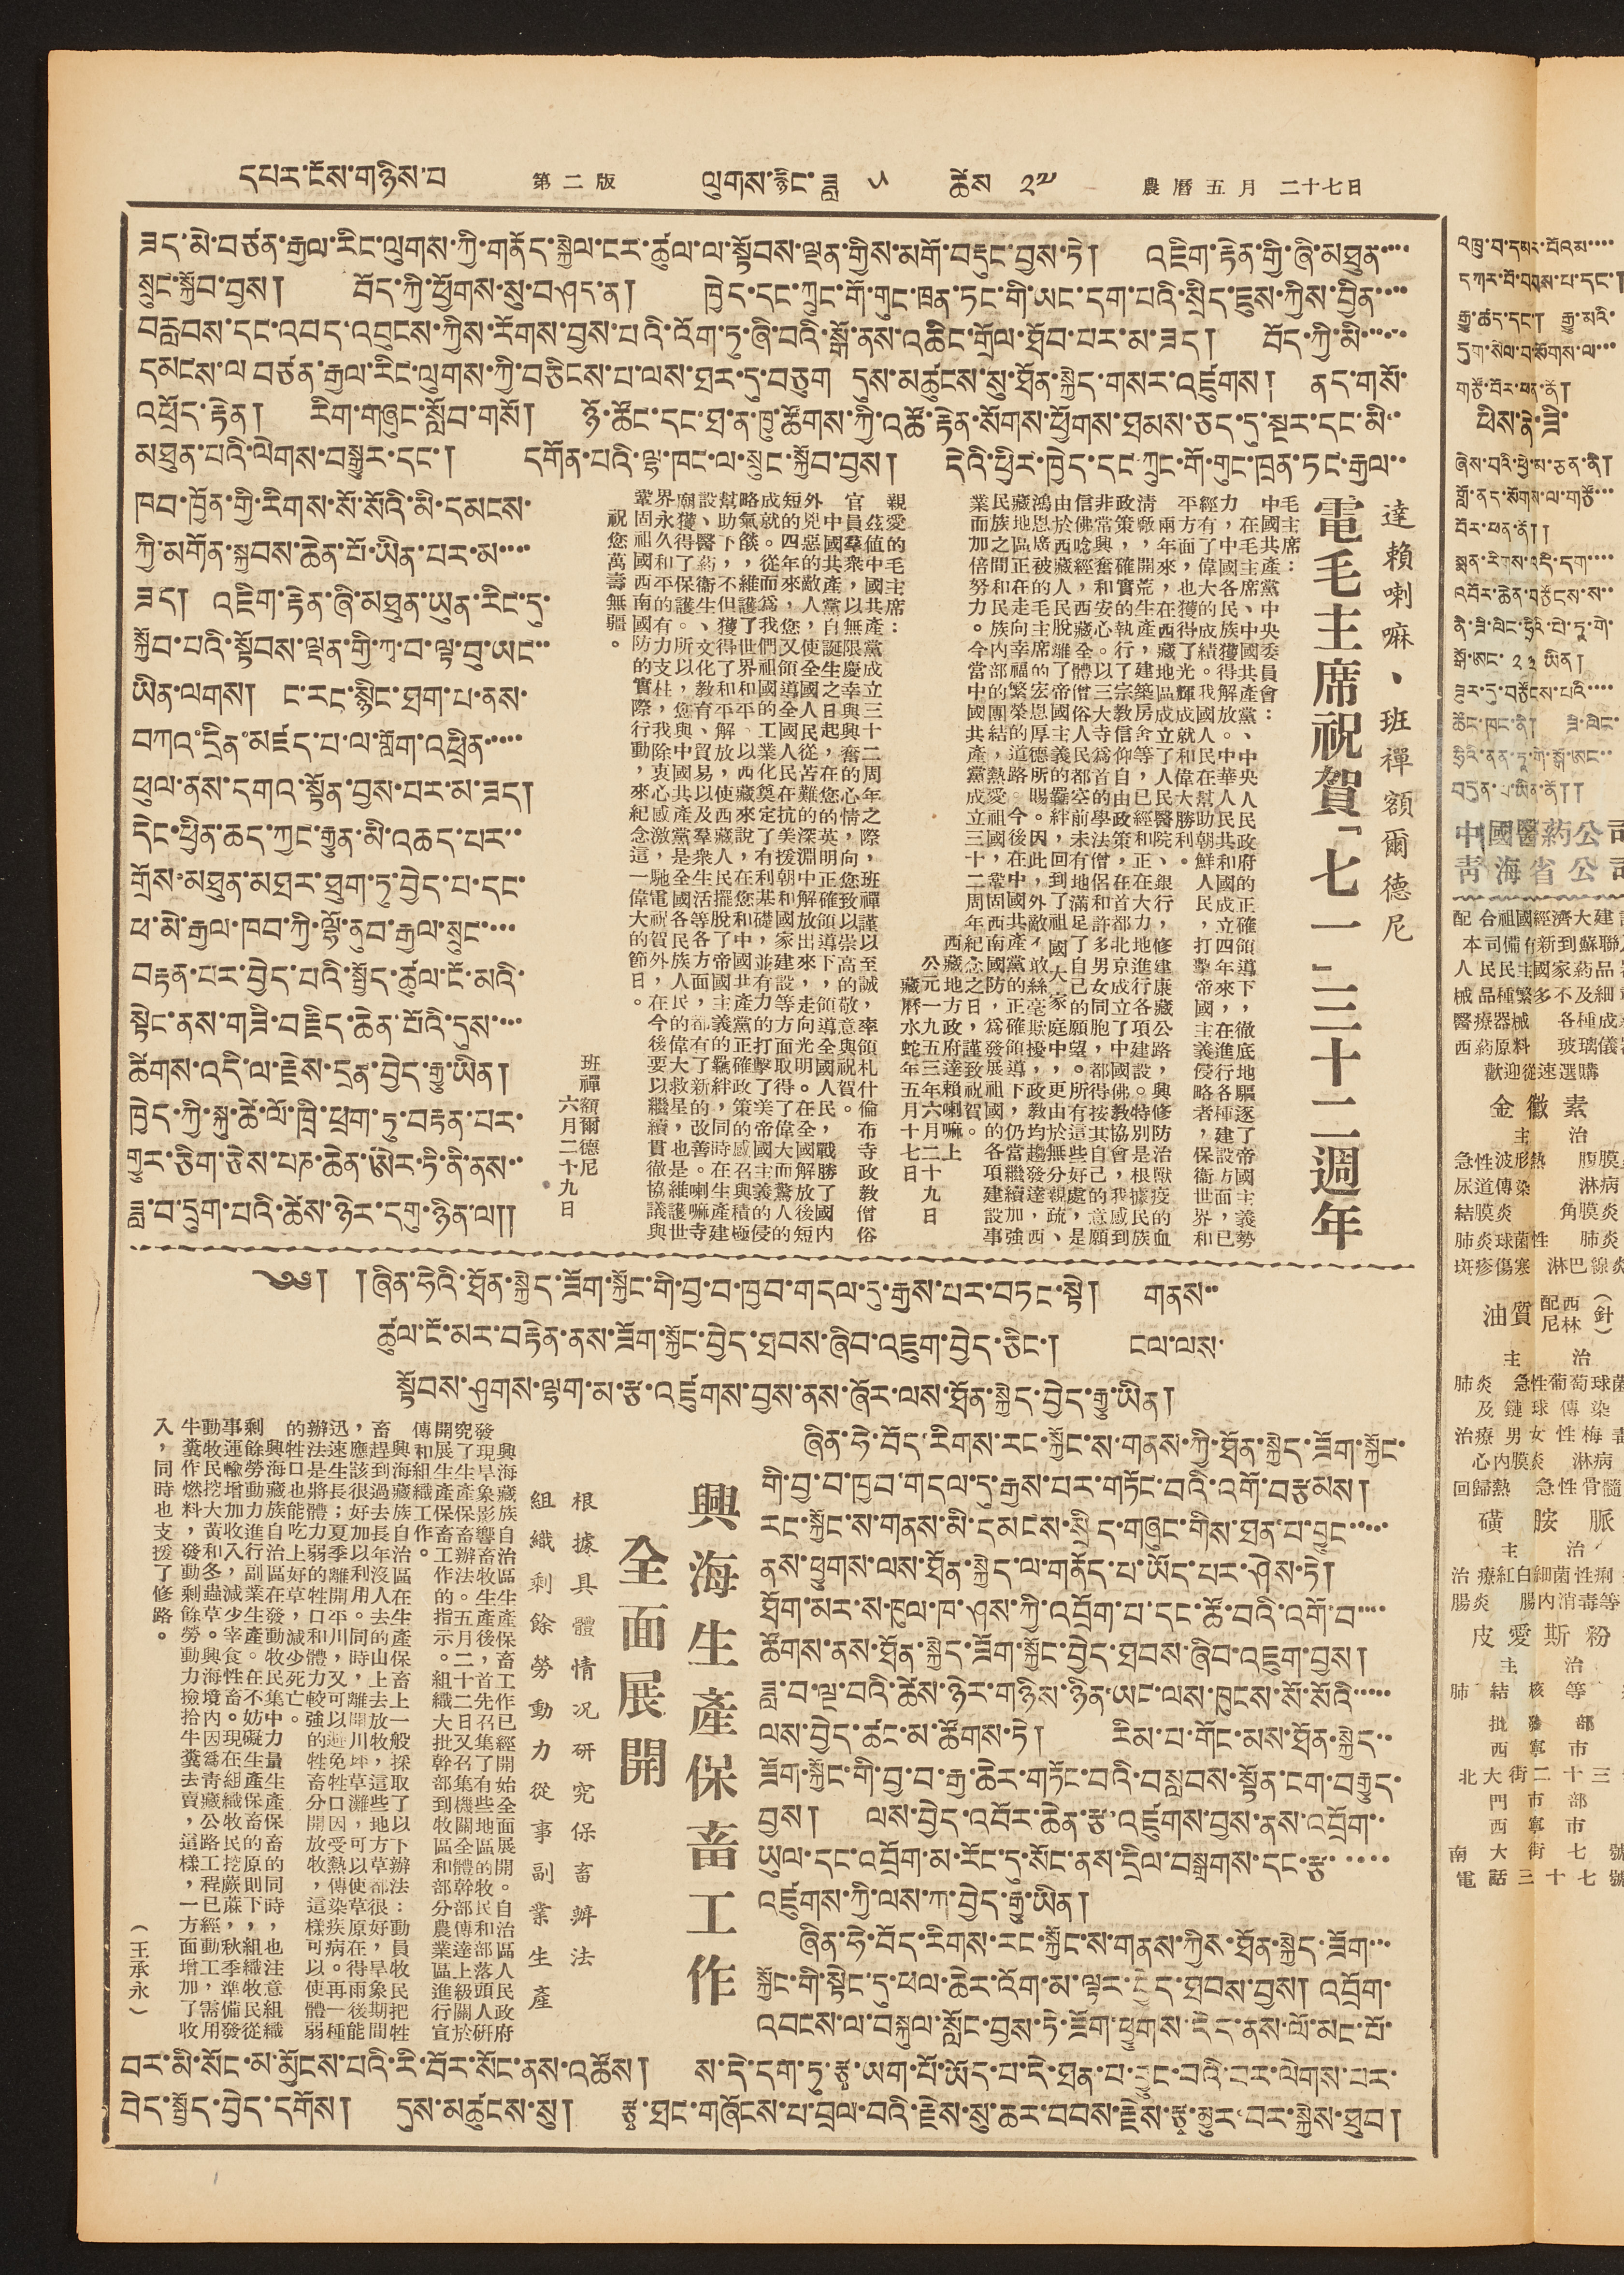དཔར་ངོས་གཉིས་པ 第 二 版 ལུགས་རྙིང་ཟླ ༥ ཚེས ༢༧ 農 曆 五 月 二十七日
ཟད་མེ་བཙན་རྒྱལ་རིང་ལུགས་ཀྱི་ནོད་སྐྱེལ་ངར་ཚུལ་ལ་སྟོབས་ལྡན་གྱིས་མགོ་བརྡུང་བྱས་ཏེ། འཇིག་རྟེན་གྱི་ཞི་མཐུན་་་་
སྲུང་སྐྱོབ་བྱས། བོད་ཀྱི་ཕྱོགས་སུ་བཤད་ན། ཁྱེད་དང་ཀྲུང་གོ་གུང་ཁྲན་ཏང་གི་ཡང་དག་པའི་སྲིད་ཇུས་ཀྱིས་བྱིན་་་་
བརླབས་དང་འབད་འབུངས་ཀྱིས་རོགས་བྱས་པའི་འོག་ཏུ་ཞི་བའི་སྒོ་ནས་འཆིང་གྲོལ་ཐོབ་པར་མ་ཟད། བོད་ཀྱི་མི་་་་་་
དམངས་ལ བཙན་རྒྱལ་རིང་ལུགས་ཀྱི་བཅིངས་པ་ལས་ཐར་དུ་བཅུག དུས་མཚུངས་སུ་ཐོན་སྐྱེད་གསར་འཛུགས། ནད་གསོ་
འཕྲོད་རྟེན། རིག་གཞུང་སློབ་གསོ། ཉོ་ཚོང་དང་ཐ་ན་ཁྱུ་ཚོགས་ཀྱི་འཚོ་རྟེན་སོགས་ཕྱོགས་ཐམས་ཅད་དུ་སྔར་དང་མི་་
མཐུན་པའི་ལེགས་བསྒྱུར་དང་། དགོན་པའི་ལྷ་ཁང་ལ་སྲུང་སྐྱོབ་བྱས། དེའི་ཕྱིར་ཁྱེད་དང་ཀྲུང་གོ་གུང་ཁྲན་ཏང་རྒྱལ་་
ཁབ་ཁྱོན་གྱི་རིགས་སོ་སོའི་མི་དམངས་
ཀྱི་མགོན་སྐྱབས་ཆེན་པོ་ཡིན་པར་མ་་་་
ཟད། འཇིག་རྟེན་ཞི་མཐུན་ཡུན་རིང་དུ་
སྐྱོབ་པའི་སྟོབས་ལྡན་གྱི་ཀྭ་བ་ལྟ་བུ་ཡང་་
ཡིན་ལགས། ང་རང་སྙིང་ཐག་པ་ནས་
བཀའ་དྲིན་མཛད་པ་ལ་གློག་འཕྲིན་་་་་
ཕུལ་ནས་དགའ་སྟོན་བྱས་པར་མ་ཟད།
དེང་ཕྱིན་ཆད་ཀྱང་རྒྱུན་མི་འཆད་པར་་
གྲོས་མཐུན་མཐར་ཐུག་ཏུ་བྱེད་པ་དང་
ཕ་མེ་རྒྱལ་ཁབ་ཀྱི་ལྷོ་ནུབ་རྒྱལ་སྲུང་་་་
བརྟན་པར་བྱེད་པའི་སྤྱོད་ཚུལ་ངོ་མའི་
སྟེང་ནས་གཟི་བརྗིད་ཆེན་པོའི་དུས་་་་
ཚིགས་འདི་ལ་རྗེས་དྲན་བྱེད་རྒྱུ་ཡིན།
ཁྱེད་ཀྱི་སྐུ་ཚེ་ལོ་ཁྲི་ཕྲག་ཏུ་བརྟན་པར་
གྱུར་ཅིག་ཅེས་པཎ་ཆེན་ཨེར་ཏི་ནི་ནས་་
ཟླ་བ་དྲུག་པའི་ཚེས་ཉེར་དགུ་ཉན་ལ༎
達賴喇嘛、班禪額爾德尼
電毛主席祝賀「七一」三十二週年
毛主席：
中國共產黨中央委員會：
在毛主席、中國共產黨、中央人民政府的正確領導下，徹底地驅逐了帝國主義勢
力，中國各民族獲得解放。中華人民共和國成立四年來，在進行各種建設方面，已
經有了偉大的成績。我國人民在幫助朝鮮人民，打擊帝國主義侵略者，保衛世界和
平方面，也獲得了光輝成就和偉大勝利。
兩年來，在西藏地區成立了人民醫院、銀行，修建康藏公路，興修防治獸疫的血
清廠，開荒生產，建築房舍等，已經和正在大力地進行各項建設。特別是根據民族
政策，確實的執行了宗教信仰自由政策，在首都北京成立了中國佛教協會，我感到
非常興奮和安心。以三大寺爲首的學法僧侶和許多男女同胞，都得按其自己的意願
信佛唸經，西藏全體僧俗人民都空前未有地滿足了自己的願望。所有這些好處，是
由於西藏人民脫離了帝國主義的羈絆，回到了祖國大家庭中，更由於無分親疏、
鴻恩廣被的毛主席的宏恩厚德所賜。因此，外敵不敢絲毫欺擾，政教均趨發達，西
藏地區正在走向幸福繁榮的道路。今後在中國共產黨的正確領導下，仍當繼續加強
民族之間和民族內部的團結，熱愛祖國，鞏固西南國防，爲發展祖國的各項建設事
業而加倍努力。今當中國共產黨成立三十二周年紀念之日，謹致祝賀。
西藏地方政府達賴喇嘛上
公元一九五三年六月二十九日
藏曆水蛇年五月十七日
親愛的毛主席：
茲値中國共產黨成立三十二周年之際，班禪謹以至誠，率領札什倫布寺政教僧俗
官員羣衆，以無限慶幸與興奮的心情，向您致以崇高的敬意與祝賀。
中國共產黨自誕生之日起，在您的英明正確領導下，領導全國人民，戰勝了國內
外兇惡的敵人，使全國人民從苦難的深淵中解放出來，走向光明。在全國解放後短
短的四年來，您又領導全國人民在抗美援朝和國家建設等方面取得了偉大而驚人的
成就。從而爲我們祖國的工業化奠定了有力基礎，並有力的打擊了美帝國主義的侵
略氣燄，維護了世界和平。以西藏來說，在您和中國共產黨正確政策的感召與積極
幫助下，不但獲得了和平解放，使西藏人民擺脫了帝國主義的羈絆，同時在生產建
設、醫藥衛生、文化教育、貿易以及羣衆生活等各方面，都有了新的改善。喇嘛寺
廟獲得了保護。所以，您與中國共產黨是全國各民族人民的偉大救星，也是維護世
界永久和平的有力支柱，我除衷心感激，馳電祝賀外，在今後要以繼續貫徹協議與
鞏固祖國西南國防的實際行動，來紀念這一偉大的節日。
祝您萬壽無疆。
班禪額爾德尼
六月二十九日
༄༅། །ཞིན་ཧེའི་ཐོན་སྐྱེད་ཟོག་སྐྱོང་གི་བྱ་བ་ཁྱབ་གདལ་དུ་རྒྱས་པར་བཏང་སྟེ། གནས་་
ཚུལ་ངོ་མར་བརྟེན་ནས་ཟོག་སྐྱོང་བྱེད་ཐབས་ཞིབ་འཇུག་བྱེད་ཅིང་། ངལ་ལས་
སྟོབས་ཤུགས་ལྷག་མ་རྩ་འཛུགས་བྱས་ནས་ཞོར་ལས་ཐོན་སྐྱེད་བྱེད་རྒྱུ་ཡིན།
ཞིན་ཧེ་བོད་རིགས་རང་སྐྱོང་ས་གནས་ཀྱི་ཐོན་སྐྱེད་ཟོག་སྐྱོང་
གི་བྱ་བ་ཁྱབ་གདལ་དུ་རྒྱས་པར་གཏོང་བའི་འགོ་བརྩམས།
རང་སྐྱོང་ས་གནས་མི་དམངས་སྲིད་གཞུང་གིས་ཐན་པ་བྱུང་་་་་
ནས་ཕྱུགས་ལས་ཐོན་སྐྱེད་ལ་གནོད་པ་ཡོད་པར་ཤེས་ཏེ།
ཐོག་མར་ས་ཁུལ་ཁ་ཤས་ཀྱི་འབྲོག་པ་དང་ཚོ་བའི་འགོ་བ་་་་
ཚོགས་ནས་ཐོན་སྐྱེད་ཟོག་སྐྱོང་བྱེད་ཐབས་ཞིབ་འཇུག་བྱས།
ཟླ་བ་ལྔ་བའི་ཚེས་ཉེར་གཉིས་ཉིན་ཡང་ལས་ཁུངས་སོ་སོའི་་་་་
ལས་བྱེད་ཚང་མ་ཚོགས་ཏེ། རིམ་པ་གོང་མས་ཐོན་སྐྱེད་་
ཟོག་སྐྱོང་གི་བྱ་བ་རྒྱ་ཆེར་གཏོང་བའི་བསླབས་སྟོན་ངག་བརྒྱུད་
བྱས། ལས་བྱེད་འབོར་ཆེན་རྩ་འཛུགས་བྱས་ནས་འབྲོག་་
ཡུལ་དང་འབྲོག་མ་རོང་དུ་སོང་ནས་དྲིལ་བསྒྲགས་དང་རྩ་་་་་
འཛུགས་ཀྱི་ལས་ཀ་བྱེད་རྒྱུ་ཡིན།
ཞིན་ཧེ་བོད་རིགས་རང་སྐྱོང་ས་གནས་ཀྱིས་ཐོན་སྐྱེད་ཟོག་་་
སྐྱོང་གི་སྟེང་དུ་ཕལ་ཆེར་འོག་མ་ལྟར་བྱེད་ཐབས་བྱས། འབྲོག་
འབངས་ལ་བསྐུལ་སློང་བྱས་ཏེ་ཟོག་ཕྱུགས་དེད་ནས་ལོ་མང་པོ་
བར་མི་སོང་མ་མྱོངས་པའི་རི་བོར་སོང་ནས་འཚོས། ས་དེ་དག་ཏུ་རྩྭ་ཡག་པོ་ཡོད་པ་དེ་ཐན་པ་བྱུང་བའི་བར་ལེགས་པར་
བེད་སྤྱོད་བྱེད་དགོས། དུས་མཚུངས་སུ། རྩྭ་ཐང་གཞོངས་པ་བྲལ་བའི་རྗེས་སུ་ཆར་བབས་རྗེས་རྩྭ་མྱུར་བར་སྐྱེས་ཐུབ།
興海生產保畜工作
全面展開
根 據 具 體 情 況 研 究 保 畜 辦 法
組 織 剩 餘 勞 動 力 從 事 副 業 生 產
興海藏族自治區生產保畜工作已經開始全面展開。自治區人民政府
發現旱象影響畜牧生產後，首先召集了有些地區的牧民和部落頭人研
究了生產保畜辦法。五月二十二日又召集機關全體幹部傳達上級關於
開展生產保畜工作的指示。組織大批幹部到牧區和部分農業區進行宣
傳和組織工作。
興海藏族自治區在生產保畜上一般採取了以下辦法：動員牧民把牲
畜趕到過去常年沒人去的山上去放牧，這些地方草都很好，旱象期間
，應該很好加以利用。同時，離開川坪草灘，可以使草原在得雨後能
迅速生長：夏季離開平川，又可以避免牲口因受熱傳染疾病。再一種
辦法是將體力弱的牲口和體力較強的牲畜分開放牧，這樣可以使體弱
的牲口也能吃上好草，減少死亡。
興海藏族自治區在發動牧民集中力量生產保畜的同時，也注意組織
剩餘勞動力進行副業生產。在不妨礙生產保畜的原則下，組織牧民從
事運輸增加收入，減少宰食牲畜。現在組織牧民挖蕨蔴，秋季準備發
動牧民挖大黃和冬蟲草。興海境內因爲青藏公路工程已經動工，需用
牛糞作燃料，發動剩餘勞動力撿拾牛糞去賣，這樣，一方面增加了收
入，同時也支援了修路。
（王承永）
འཁྲུ་བ་དམར་པོའམ་་་་
དཀར་བོ་བབས་པ་དང་།
རྒྱུ་ཚད་དང་། རྒྱུ་མའི་
དུག་སེལ་བ་སོགས་ལ་་་
གཙོ་བོར་ཕན་ནོ།
ཕིས་ནེ་ཟི་
ཞེས་པའི་ཕྱེ་མ་ཅན་ནི།
གློ་ནད་སོགས་ལ་གཙོ་་་
བོར་ཕན་ནོ༎
སྨན་རིགས་འདི་དག་་་་
འབོར་ཆེན་བཙོངས་ས་་
ནི་ཟི་ལིང་ཧྲིའི་པེ་ཏཱ་གེ་
སྒོ་ཨང་ ༢༣ ཡིན།
ཟུར་དུ་བཙོངས་པའི་་་་
ཚོང་ཁང་ནི། ཟི་ལིང་
ཧྲིའི་ནན་ཏཱ་གེ་སྒོ་ཨང་་
བདུན་པ་ཡིན་ནོ༎
中國醫葯公司
青 海 省 公 司
配 合祖國經濟大建設
本司備有新到蘇聯及
人民民主國家葯品器
械 品種繁多不及細載
醫療器械 各種成葯
西葯原料 玻璃儀器
歡迎從速選購
金 黴 素
主 治
急性波形熱 腹膜炎
尿道傳染 淋病
結膜炎 角膜炎
肺炎球菌性 肺炎
斑疹傷寒 淋巴線炎
油質
配尼
西林
（針）
主 治
肺炎 急性葡萄球菌
及 鏈 球 傳 染
治療 男 女 性 梅 毒
心內膜炎 淋病
回歸熱 急性骨髓炎
磺 胺 脈
主 治
治 療紅白細菌性痢 疾
腸炎 腸內消毒等
皮 愛 斯 粉
主 治
肺 結 核 等 症
批 發 部
西 寧 市
北大街二十三號
門 市 部
西 寧 市
南 大 街 七 號
電 話 三 十 七 號
